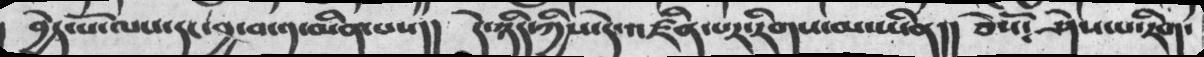བྱེད་པོ་ལས་དང་བྱ་བ་༡་མིན་པས།། དེ་ཉིད་ཀྱིས་དེ་འཛིན་པར་རིགས་མ་ཡིན།། ཅེསོ༴ ཤེས་པ་རིག་
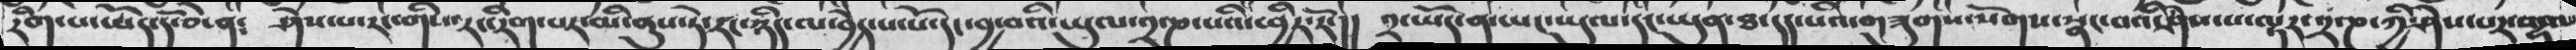རིག་པ་ཡོད་དོ་ཅེ་ན༴ ཤེས་པ་རང་གི་རང་རིག་པར་མི་ནུས་ཏེ་རང་ཉིད་ལ་བྱེད་པ་པོ་དང་བྱ་བའི་ཡུལ་༢་ཎ་པའི་ཕྱིར་རོ་།། ༢་ཡོད་ན་ཡང་ཡུལ་དང་ཡུལ་ཐ་དད་པའི་གཟུགས་སོགས་སྣང་བའི་ཤེས་པ་ལྟར་༢་ཎ་ཀྱི་ཤེས་པར་གྷལ
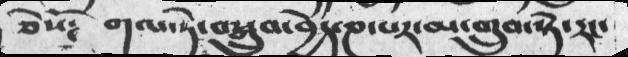ཅེསོ༴ གལ་ཏེ་བསྒྲུབ་བྱེད་ཎ་པར་མ་གྲུབ་སྟེ་རང་
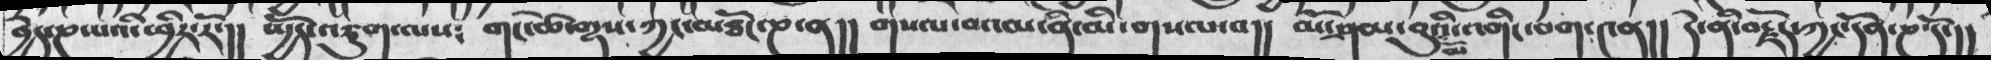བྱད་ཎ་པའི་ཕྱིར་རོ་།།  སྤྱོད་འཇུག་ལས༴  གང་ཚེ་གྷས་ཀྱང་མཏོང་ཎ་ན།།  གསལ་བའམ་ནི་མི་གསལ་བ།།  མོ་ཤམ་བུའི་མོ་འགིང་བག་༤ན།།  དེ་ནི་བརྗོད་ཀྱང་དོན་ཎ་དོ་།།
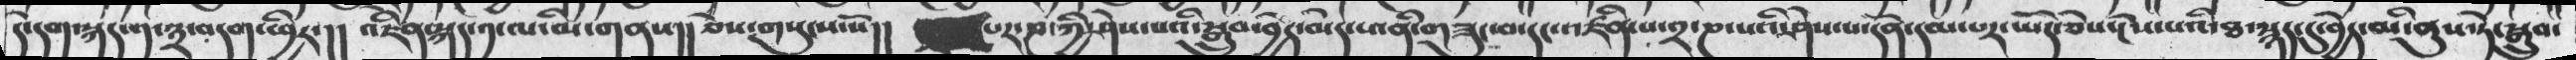དེ་དག་སྐད་༡་༣་བདག་ཕྱིར་།།  འཇིེན་སྐད་༡་ལ་མི་གནས།།  ཅེས་གསུངས་སོ།།  པར་ཎ་ཀྱི་ཤེས་པའི་སྒྲུབ་བྱེད་མེད་པ་ནི་གཟུང་བ་དང་འཛིན་པ་༢་ཎ་པའི་ཤེས་པ་དོན་དམ་པར་ཡོད་ཅེས་སྔོས་པའི་ཐ་སྙད་དུ་བྱེད་མི་ནུས་ཏེ་སྒྲུབ་
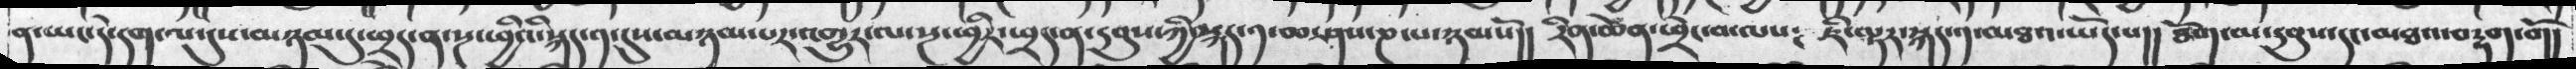ན་ཡང་དེ་དག་ལ་དུས་མཉམ་དུ་ཕྲད་ན་སྔ་ཕྱིའི་སྐད་༡་དུས་མཉམ་པར་འགྱུར་ལ་སྔ་ཕྱིར་ཕྲད་ན་དབུས་ཀྱི་སྐད་༡་ཆ་ཤས་ཎ་པ་ཉམསོ།། རིན་ཆེན་ཕྲེང་བ་ལས༴ ཇི་ལྟར་སྐད་༡་མཐའ་ཡོད་པ།། ཐོག་མ་དབུས་དང་མཐའ་བརྟག་གོ།
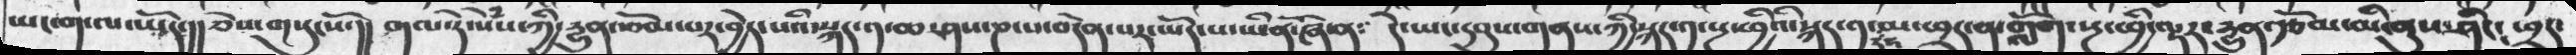ཡང་ག་ལ་ཡོད་།།ཅེས་གསུངསོ་།།།  གལ་ཏེ་སེཾས་ཀྱི་དྱུན་རྩོམ་པར་བྱེད་པའི་སྐད་༡་ཆ་ཤས་ཎ་པ་བདེན་པར་ཡོད་པ་ཡིནོ་ཞེ་ན༴   དེ་ཡང་དབུས་གནས་ཀྱི་སྐད་༡་སྔ་ཕྱིའི་སྐད་༡་དང་མ་ཕྲད་ན་གློག་སྔ་ཕྱི་ལྟར་དྱུན་རྩོམ་མི་ནུས་ཤིང༴  ཕྲད་
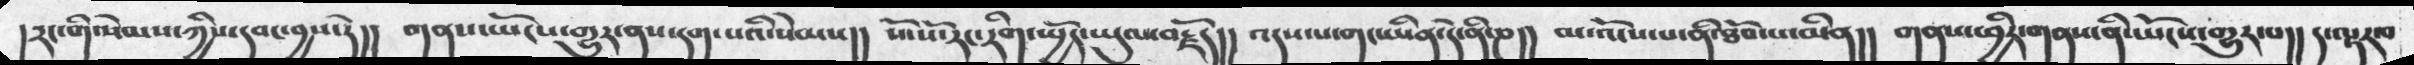།རང་གིས་སེམས་ཀྱིས་དབང་བྱས་ཏེ།། གནས་ཡོངས་གྱུར་ནས་དག་པའི་སེམས།། སོ་སོ་རང་རིག་སྤྱོད་ཡུལ་བརྗོད།། འདས་པ་གང་ཡི་དེ་ནི་ཎ།། མ་འོངས་པ་ནི་ཐོབ་པ་མིན།། གནས་ཕྱིར་གནས་ནི་ཡོངས་གྱུར་པ།། ད་ལྟར་བ
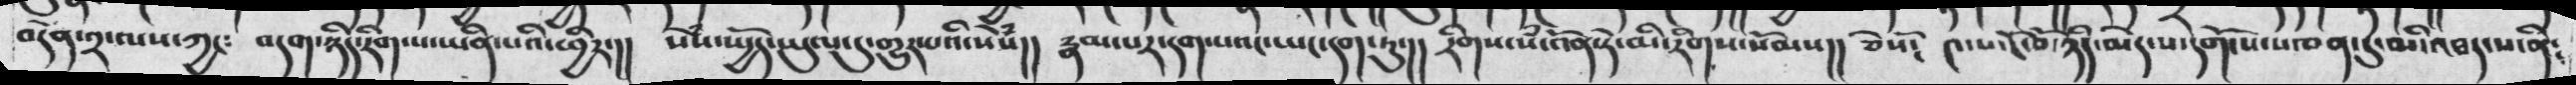བདེན་༢་ལས་ཀྱང༴   བདག་ཉིད་རིག་པ་ཡིན་པའི་ཕྱིར་།།  སེཾས་སྤྱོད་ཡུལ་དུ་གྱུར་པའི་སེཾས།།  རྣམ་པར་དག་པའང་ཡང་དག་ཏུ་།།  རིགས་སཾ་འོན་ཏེ་མི་རིགས་སེམས།།  ཅེསོ༴  ༤་པ་ངོ་བོ་ཉིད་མེད་པ་དགོངས་པ་ཅན་དུ་མི་འཐད་པ་ནི༴
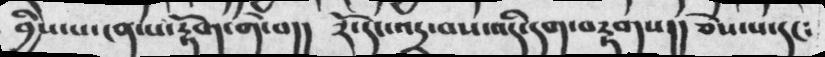བྱིས་པ་ངན་པ་རྟོག་གེ་བ།།  རོ་དང་འདྲ་བས་འདི་དག་བརྟགས།།  ཅེས་པ་དང༴
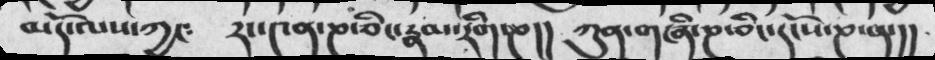མདོ་ལས་ཀྱང༴  རང་༤ན་ཎ་ཅིང་རྣམ་རིག་ཎ།།  ཀུན་གཞི་ཎ་ཅིང་དངོས་ཎ་ན་།།
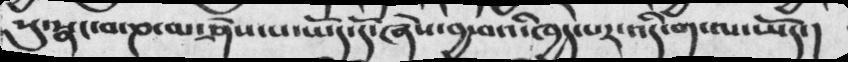སུ་སྣང་བ་ཎ་མ་ཤེས་པ་ཡོད་དོ་ཞེས་བྱ་བའི་ཁྱད་པར་འདི་ག་ལ་ཡོད་།
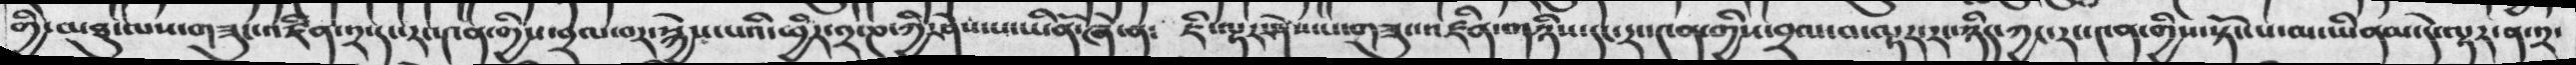གྱི་མཐུ་ལས་གཟུང་འཛིན་༢་དང་རང་༤ན་གྱིས་བྲལ་བར་སྐྱེས་པའི་ཕྱིར་༢་ཎ་ཀྱི་ཤེས་པ་ཡིནོ་ཞེ་ན༴ ཇི་ལྟར་ཤེས་པ་གཟུང་འཛིན་གཉིས་དང་རང་༤ན་གྱིས་བྲལ་བ་ལྟར་རང་ཉིད་ཀྱང་རང་༤ན་གྱིས་སྟོང་པ་མ་ཡིནམ་དེ་ལྟར་ན་༢་
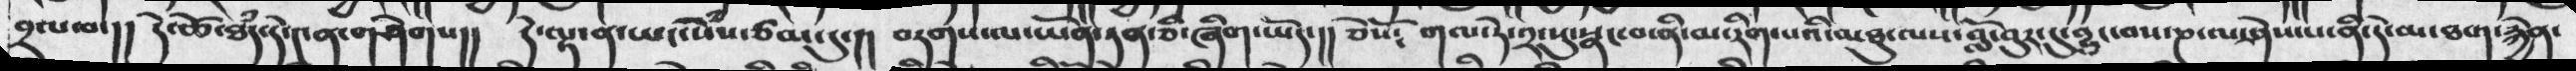བྲལ་བ་།། དེ་ཚེ་ཐཾད་དེ་༤ན་གཤེགས།། དེ་ལྟ་ན་ཡང་སེཾས་ཙམ་དུ་།། བཏགས་ལ་ཡོན་ཏན་ཅི་ཞིག་ཡོད་། ཅེསོ༴ གལ་ཏེ་༢་སུ་སྣང་བ་ནི་མ་རིགས་པའི་མཐུ་ལས་བློ་བུར་དུ་བྱུང་བས་ཎ་ལ་ཤེས་པ་ནི་དེ་མ་ཐག་རྐྱེན་
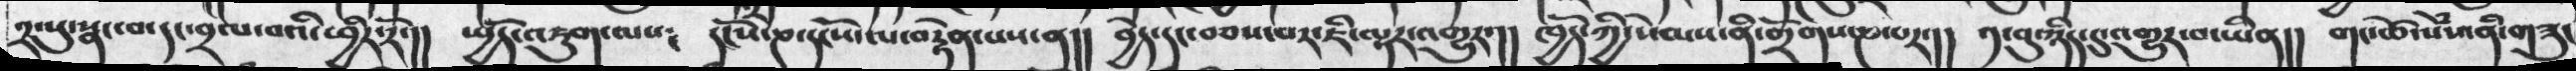༢་སུ་སྣང་བ་དང་བྲལ་བའི་ཕྱིར་རོ་།། སྤྱོད་འཇུག་ལས༴ དངོས་ཎ་དངོས་ལ་བརྟེན་པས་ན།། བྱེད་དང་བཅས་པར་ཇི་ལྟར་འགྱུར་།། ཁྱོད་ཀྱི་སེམས་ནི་གྲོགས་ཎ་པར་།། ༡་བུ་ཉིད་དུ་འགྱུར་བ་ཡིན།། གང་ཚེ་སེཾས་ནི་གཟུང
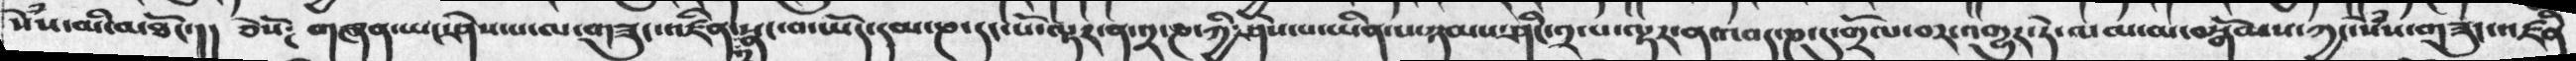སེཾས་མི་མཐོང་།། ཅེསོ༴  གཞན་ཡང་ཤེས་པ་ལ་གཟུང་འཛིན་༢་སྣང་བ་ཡོད་དམ་ཎ་དང་པོ་ལྟར་ན་༢་ཎ་ཀྱི་ཤེས་པ་ཡིན་པ་ཉམས་ཤིང་༢་པ་ལྟར་ན་འབད་ཎ་དུ་གྲོལ་བར་འགྱུར་ཏེ་ལམ་མ་བསྒོམས་ཀྱང་སེཾས་གཟུང་འཛིན
